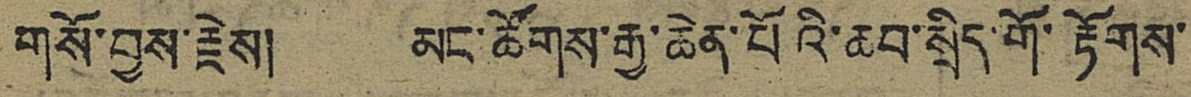གསོ་བྱས་རྗེས། མང་ཚོགས་རྒྱ་ཆེན་པོའི་ཆབ་སྲིད་གོ་རྟོགས་
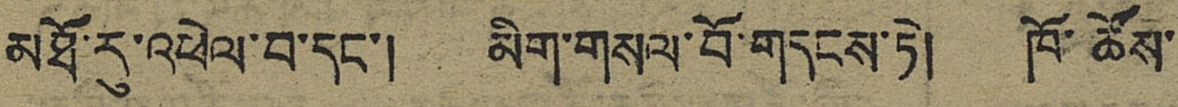མཐོ་རུ་འཕེལ་བ་དང་། མིག་གསལ་བོ་གདངས་ཏེ། ཁོ་ཚོས་
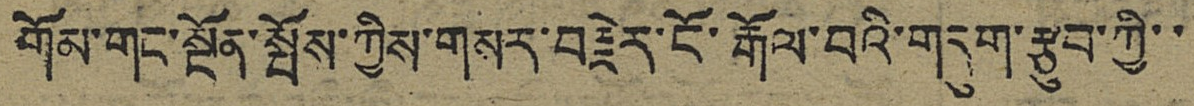གོམ་གང་སྔོན་སྤོས་ཀྱིས་གསར་བརྗེར་ངོ་རྒོལ་བའི་གདུག་རྩུབ་ཀྱི་་
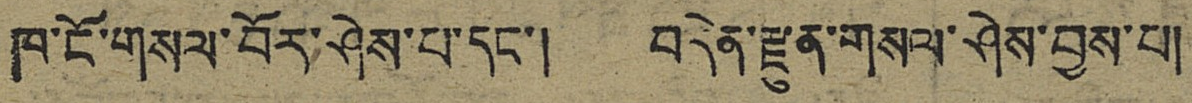ཁ་ངོ་གསལ་བོར་ཤེས་པ་དང་། བདེན་རྫུན་གསལ་ཤེས་བྱས་པ།
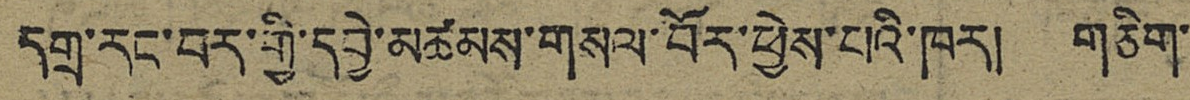དགྲ་རང་བར་གྱི་དབྱེ་མཚམས་གསལ་བོར་ཕྱེས་པའི་ཁར། གཅིག་
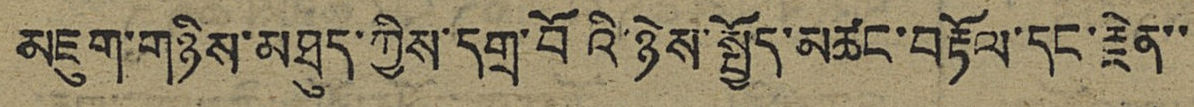མཇུག་གཉིས་མཐུད་ཀྱིས་དགྲ་བོའི་ཉེས་སྤྱོད་མཚང་བརྟོལ་དང་རྗེན་་
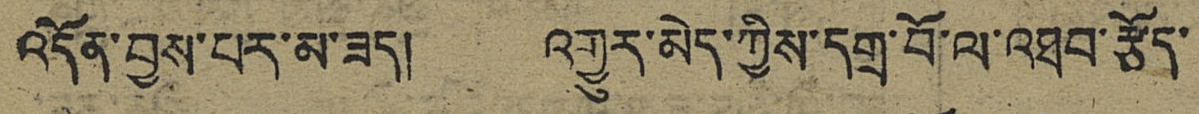འདོན་བྱས་པར་མ་ཟད། འགྱུར་མེད་ཀྱིས་དགྲ་བོ་ལ་འཐབ་རྩོད་
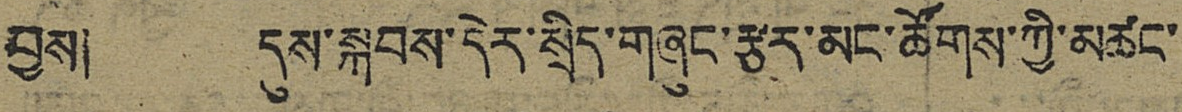བྱས། དུས་སྐབས་དེར་སྲིད་གཞུང་རྩར་མང་ཚོགས་ཀྱི་མཚང་
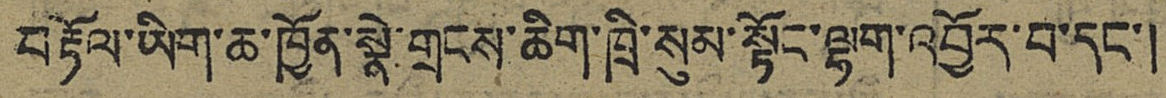བརྟོལ་ཡིག་ཆ་ཁྱོན་སྣེ་གྲངས་ཆིག་ཁྲི་སུམ་སྟོང་ལྷག་འབྱོར་བ་དང་།
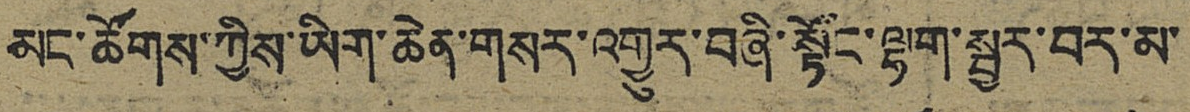མང་ཚོགས་ཀྱིས་ཡིག་ཆེན་གསར་འགྱུར་བཞི་སྟོང་ལྷག་སྦྱར་བར་མ་
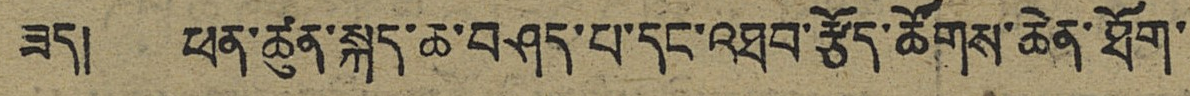ཟད། ཕན་ཚུན་སྐད་ཆ་བཤད་པ་དང་འཐབ་རྩོད་ཚོགས་ཆེན་ཐོག་
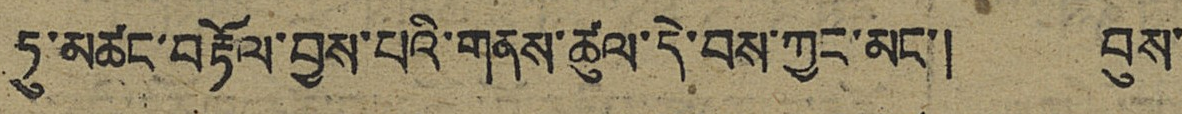ཏུ་མཚང་བརྟོལ་བྱས་པའི་གནས་ཚུལ་དེ་བས་ཀྱང་མང་། བུས་
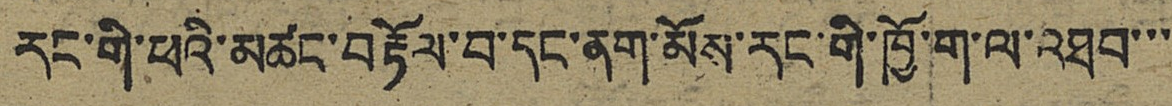རང་གི་ཕའི་མཚང་བརྟོལ་བ་དང་ནག་མོས་རང་གི་ཁྱོ་ག་ལ་འཐབ་་་་
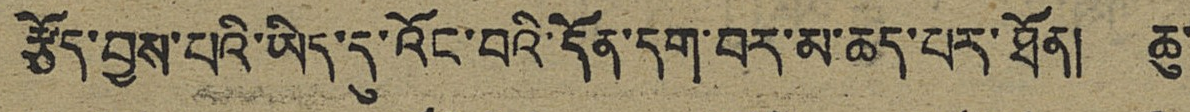རྩོད་བྱས་པའི་ཡིད་དུ་འོང་བའི་དོན་དག་བར་མ་ཆད་པར་ཐོན། ཆུ་
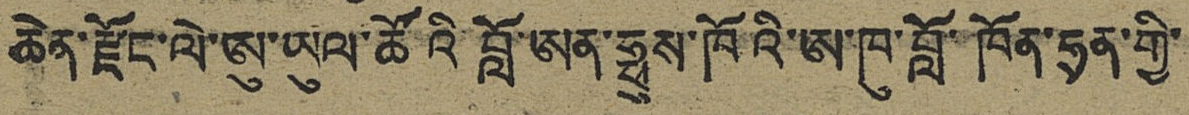ཆེན་རྫོང་ལེ་ཨུ་ཡུལ་ཚོའི བློ་ཨན་ཧྥུས་ཁོའི་ཨ་ཁུ་བློ་ཁོན་ཧྲན་གྱི་
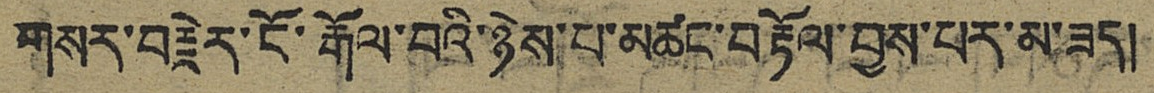གསར་བརྗེར་ངོ་རྒོལ་བའི་ཉེས་པ་མཚང་བརྟོལ་བྱས་པར་མ་ཟད།
